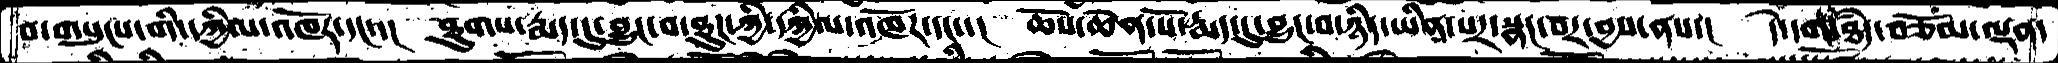བ་གསུངས་གི་དཀྱིལ་འཁོར་དང་་།   ཐུགས་རྨད་དུ་བྱུང་བ་ཐུཌ་ཀྱི་དཀྱིལ་འཁོར་དང་་།  ཆོས་ཆེན་པོ་རྨད་དུ་བྱུང་བ་ཉིད་ཡིན་པར་སྣང་བར་བྱས་ནས་།  དེ་དག་ཐཾད་བཅོམ་ལྡན་
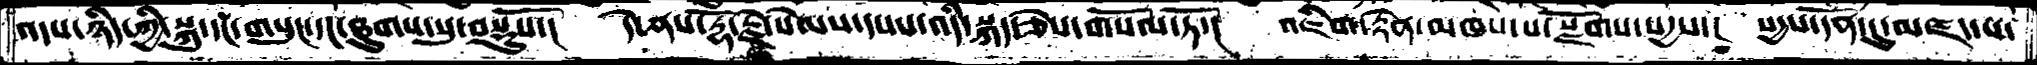འདས་ཉིད་ཀྱི་སྐུ་དང་གསུང་དང་ཐུགས་སུ་བསྡུསོ་།  དེ་ནས་རྡོ་རྗེ་སེམས་དཔའ་འདི་སྐད་ཅེས་གསོལ་ཏོ་།  འཇིག་་རྟེན་མཁས་པ་སྫོགས་སདྱས་།  སདྱས་དོན་དུ་མཛད་པ་
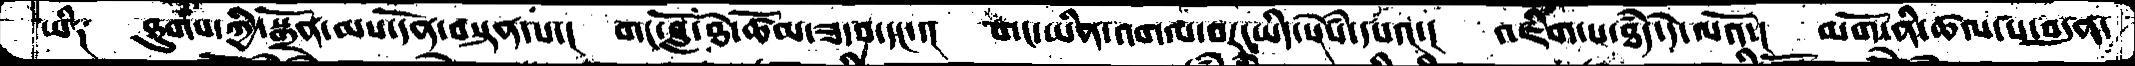ཡི༑  ཐུགས་ཀྱི་སྒྲོན་མས་དོན་བསྟན་པ་།  གང་བློ་ཐེ་ཚོམ་ཟ་བ་དང་་།  གང་ཡིན་འགལ་བར་ཡིད་སེསཾ་དཔའ་།  འཇིག་པ་ཐཾད་དེ་ལའོ་།   མགོ་ནི་ཚལ་པ་བདུན
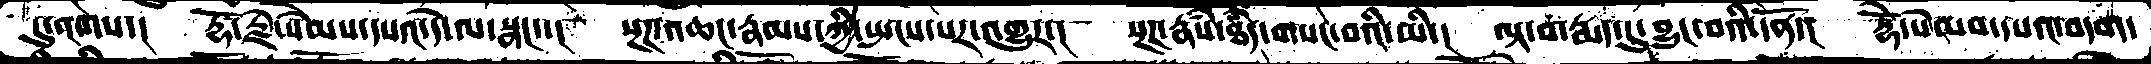དུ་འགས་།  རྡོ་རྗེ་སེམས་དཔའ་དེ་ལ་སྣང་་།  སྔཌ་འཆང་རྣམས་ཀྱི་སྤངས་པར་འགྱུར་།  སྔཌ་རྣཾས་ཐཾད་གསང་བའི་མི་།  ལྟ་བ་རྨད་དུ་བྱུང་བའི་དོན་།  རྡོེ་སེམས་དཔའ་བདག་
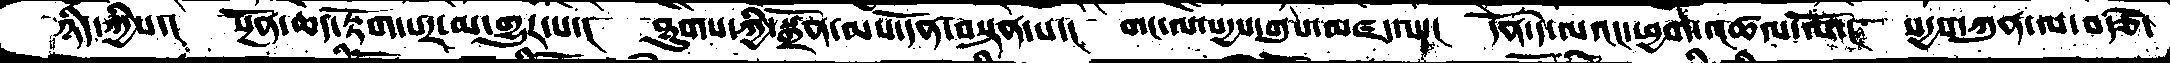ཉིད་ཀྱིས་།  སྔོན་ཆད་རྟོག་པར་མ་གྱུར་པ་།  ཐུགས་ཀྱི་སྒྲོན་མས་དོན་བསྟན་པ་།  གང་ལ་སདྱས་གུས་མཛད་པ་།  དོན་དེ་ལའང་ཕྱག་འཚལ་ལོ་།  སདྱས་ཀུན་ལ་བརྩེ་
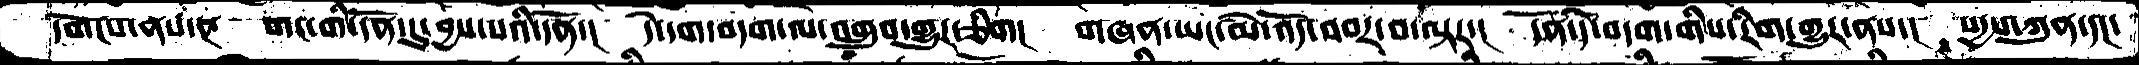དགོངས་ནས་།  གང་གི་དོན་དུ་བྱས་པའི་དོན་།  དེ་དག་བདག་ལ་འགྲུབ་གྱུར་ཅིག།  གཞན་ཡང་མེ་འོད་འབར་བ་ལྟར་།  དོན་དེ་བདག་གིས་རིག་གྱུར་ནས་།  སདྱས་ཀུན་དང་
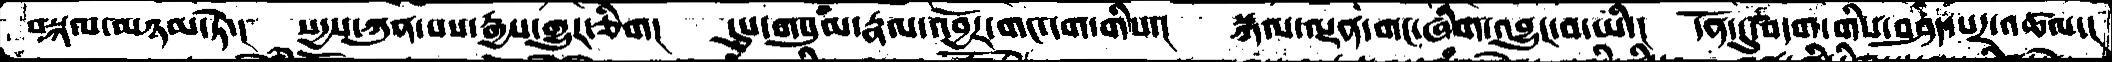བསྐལ་མཉམ་ཏེ་།  སདྱས་ཀུན་པས་རྒྱས་གྱུར་ཅིག།  དུས་གསུམ་རྣལ་འབྱོར་གང་དག་གིས་།  སྐལ་ལྡན་གང་ཞིག་འབྱུང་བ་ཡི་།  དོན་དུ་བདག་གིས་བཤད་པར་འཚལ་།
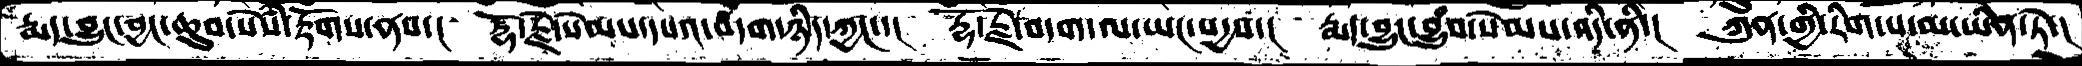རྨད་བྱུང་བྱང་ཆུབ་སེཾས་རྟོགས་ནས་། རྡོ་རྗེ་སེམས་དཔའ་བདག་ཉིད་ཀྱང་་།  རྡོ་རྗེ་བདག་ལ་ཡང་སདྱས་།  རྨད་བྱུང་བྱུཾབ་སེམས་འདི་ནི་།  ཀུན་གྱི་རིག་པ་མ་ཡིན་ཏེ་།
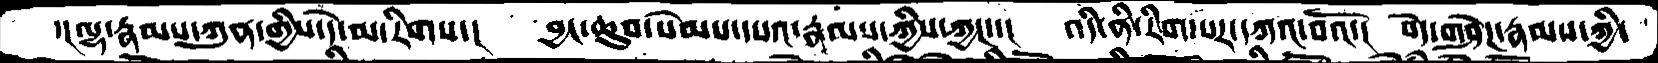་།ལྷ་རྣམས་ཀུན་གྱིས་དེ་མ་རིགས་།  བྱང་ཆུབ་སེམས་དཔའ་རྣམས་ཀྱིས་ཀྱང་།  འདི་ནི་རིག་པར་དཀའ་བའོ་།  བདེ་གཤེཌ་རྣམས་ཀྱི་
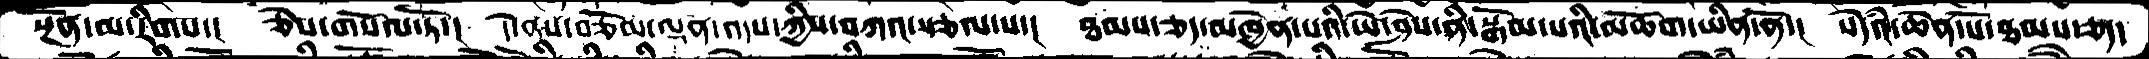སྔོན་ལ་མ་རིགས་།  ཅེས་གསོལ་ཏོ་།  དེ་ནས་བཅོམ་ལྡན་འདས་ཀྱིས་བཀའ་རྩལ་པ་།  ཐམས་ཅད་མཁྱེན་པའི་ཡེ་ཤེས་ནི་སྒོམ་པའི་མཆོག་ཡིན་ནོ་།  སེདའཾ་ཆེན་པོ་ཐམས་ཅད་
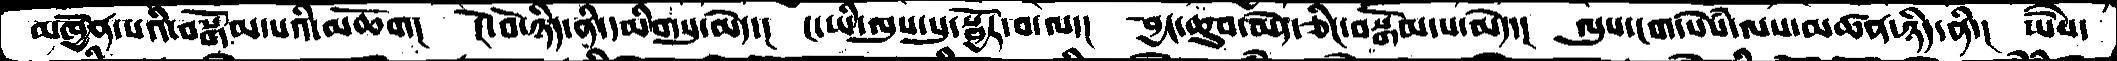མཁྱེན་པའི་བསྒོམ་པའི་མཆོག།  ངོ་བོ་ཉིད་ནི་དམིགསུ་མེད་།  ང་ཡི་ལུས་སུ་སྦྱོར་བ་ལ་།  བྱང་ཆུབ་མེད་ཅིང་བསྒོམ་པ་མེད་།  ལུས་ངག་སེསཾ་ལས་མཚན་ཉིད་ནི་།  ཡཻས་
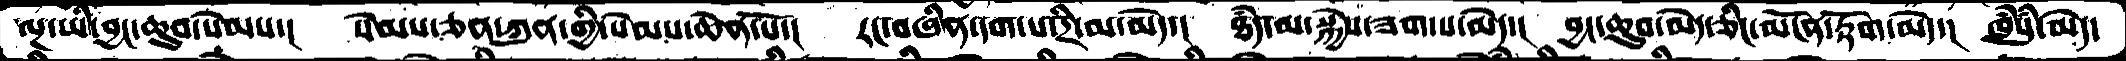ལྔ་ཡི་བྱང་ཆུབ་སེམས་།  སེམས་ཅན་ཀུན་གྱི་སེམས་ཆེན་པོ་།  རང་བཞིན་དག་པ་དྲི་མ་མེད་།  ཐྃད་མ་སྐྱེས་ཟག་པ་མེད་།  བྱང་ཆུབ་མེད་ཅིང་མངོན་རྟོག་མེད་།  ཁཾསུཾ་མེད་
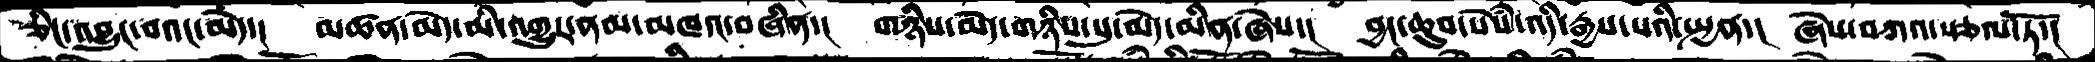ཅིང་འབྱུང་བའང་མེད་། མཚན་མེད་མི་འགྱུར་ནམ་མཁའ་བཞིན་། གཉིས་མེད་གཉིས་སུ་མེད་མིན་ཞེས་། བྱང་ཆུབ་སེཾས་འདི་རྒྱས་པའི་སྤྱན་། ཞེས་བཀའ་སཅལ་ཏོ་།
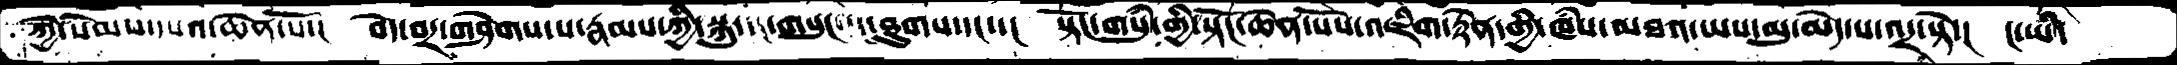ཀྱེ་སེམས་དཔའ་ཆེན་པོ་།  བདེ་བར་གཤེགས་པ་རྣམས་ཀྱི་སྐུ་དང་གསུང་དང་ཐུགས་དང་།  སྟོང་གསུཾ་གྱི་སྟོང་ཆེན་པོས་འཇིག་རྟེན་གྱི་ཁཾས་མཐའ་ཡས་མུ་མེད་པ་འདྲ་སྟེ་།  ང་ཡི་
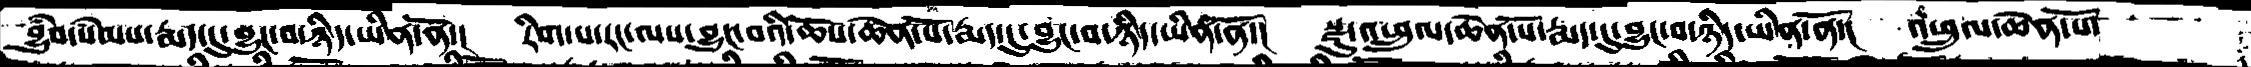བྱུཾབ་སེམས་རྨད་དུ་བྱུང་བ་ཉིད་ཡིན་ནོ་།  རིག་པརང་ལས་བྱུང་བའི་ཆོས་ཆེན་པོ་རྨད་དུ་བྱུང་བ་ཉིད་ཡིན་ནོ་།  སྫུ་འཕྲུལ་ཆེན་པོ་རྨད་དུ་བྱུང་བ་ཉིད་ཡིན་ནོ་།  འཕྲུལ་ཆེན་པོ་
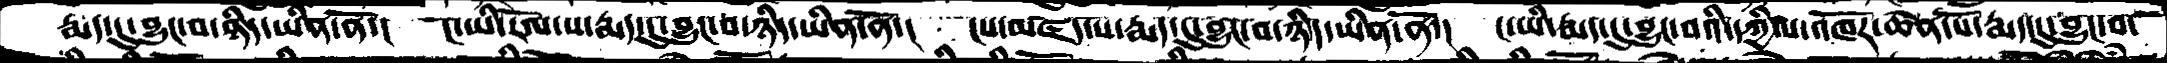རྨད་དུ་བྱུང་བ་ཉིད་ཡིན་ནོ་།  ང་ཡི་རོལ་པ་རྨད་དུ་བྱུང་བ་ཉིད་ཡིན་ནོ་།   ངས་མཛད་པ་རྨད་དུ་བྱུང་བ་ཉིདཡིན་ནོ་།  ང་ཡི་རྨད་དུ་བྱུང་བའི་དཀྱིལ་འཁོར་ཆེན་པོ་རྨད་དུ་བྱུང་བ་
